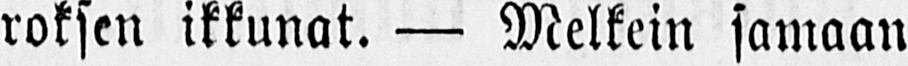roksen ikkunat. — Melkein samaan
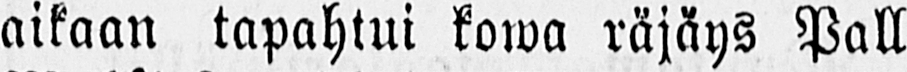aikaan tapahtui kowa räjäys Pall
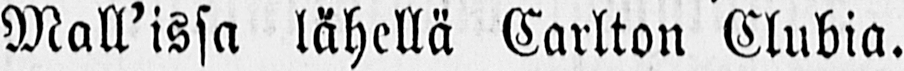Mall'issa lähellä Carlton Clubia.
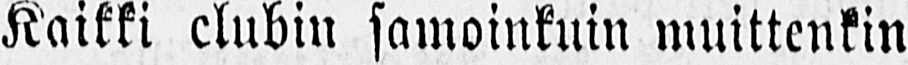Kaikki clubin samoinkuin muittenkin
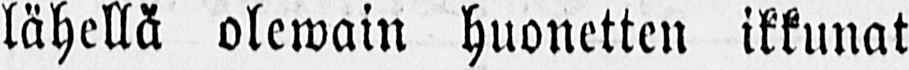lähellä olewain huonetten ikkunat
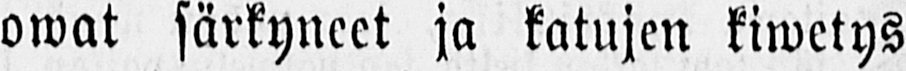owat särkyneet ja katujen kiwetys
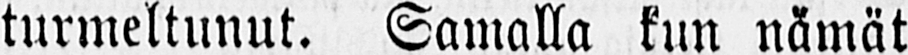turmeltunut. Samalla kun nämät
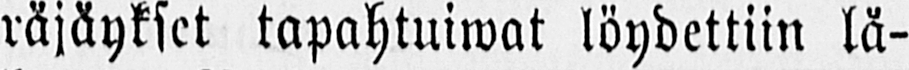räjäykset tapahtuiwat löydettiin lä-
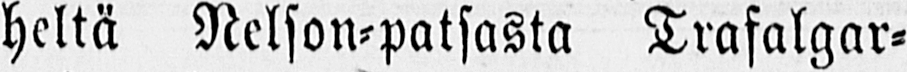heltä Nelson-patsasta Trafalgar-
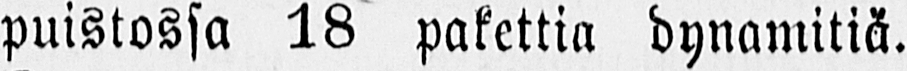puistossa 18 pakettia dynamitiä.
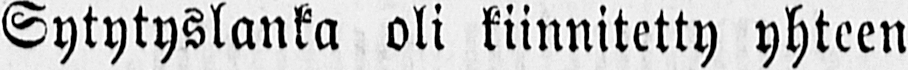Sytytyslanka oli kiinnitetty yhteen
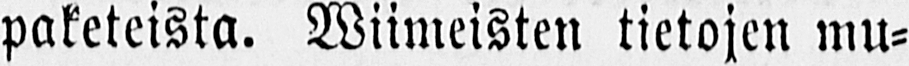paketeista. Wiimeisten tietojen mu-
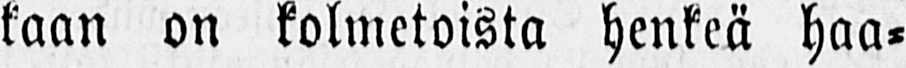kaan on kolmetoista henkeä haa-
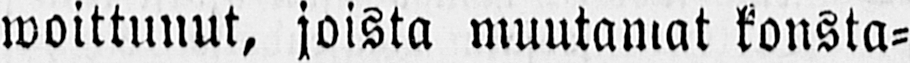woittunut, joista muutamat konsta-
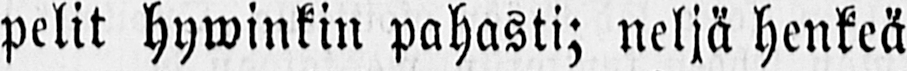pelit hywinkin pahasti; neljä henkeä
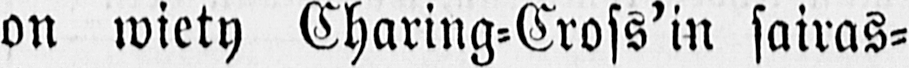on wiety Charing-Cross'in sairas-
